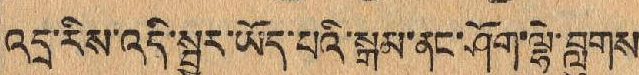འདྲ་རིས་འདི་སྦྱར་ཡོད་པའི་སྒམ་ནང་ཤོག་ལྷེ་བླུགས་
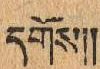དགོས།།
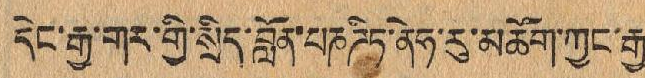དེང་རྒྱ་གར་གྱི་སྲིད་བློན་པཎཌིཏ་ནེཧ་རུ་མཆོག་ཀྱང་རྒྱ་
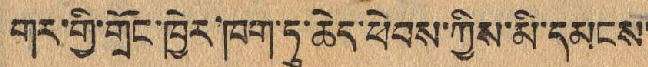གར་གྱི་གྲོང་ཁྱེར་ཁག་ཏུ་ཆེད་ཕེབས་ཀྱིས་མི་དམངས་
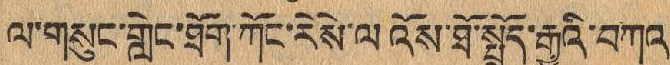ལ་གསུང་གླེང་ཐོག་ཀོང་རེསེ་ལ འོས་ཐོ་སྤྲོད་རྒྱུའི་བཀའ
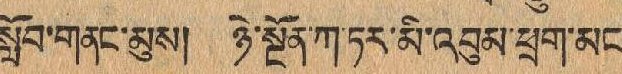སློབ་གནང་མུས། ཉེ་སྔོན་ཀ་ཏར་མི་འབུམ་ཕྲག་མང་
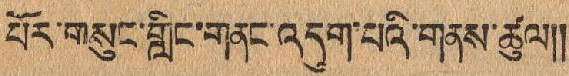པོར་གསུང་གླིང་གནང་འདུག་པའི་གནས་ཚུལ།།
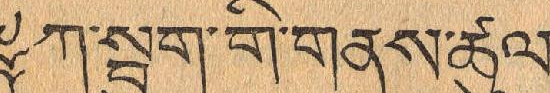༈ ཀ་སྦུག་གི་གནས་ཚུལ།
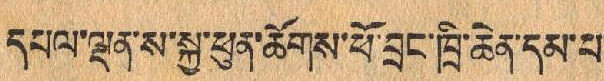དཔལ་ལྡན་ས་སྐྱ་ཕུན་ཚོགས་ཕོ་བྲང་ཁྲི་ཆེན་དམ་པ་
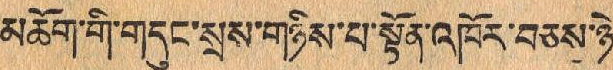མཆོག་གི་གདུང་སྲས་གཉིས་པ་སྟོན་འཁོར་བཅས་ཉེ་
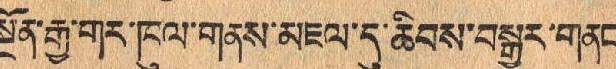སྔོན་རྒྱ་གར་ཁུལ་གནས་མཇལ་དུ་ཆིབས་བསྒྱུར་གནང་
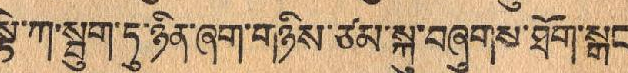སྟེ་ཀ་སྦུག་ཏུ་ཉིན་ཞག་གཉིས་ཙམ་སྐུ་བཞུགས་ཐོག་སྒང་
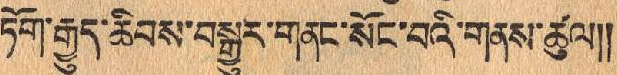ཏོག་རྒྱུད་ཆིབས་བསྒྱུར་གནང་སོང་བའི་གནས་ཚུལ།།
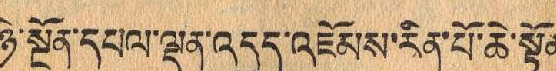ཉེ་སྔོན་དཔལ་ལྡན་འདུད་འཇོམས་རིན་པོ་ཆེ་སྟོན་
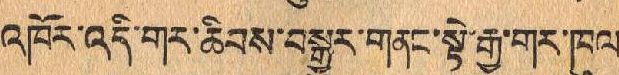འཁོར་འདི་གར་ཆིབས་བསྒྱུར་གནང་སྟེ་རྒྱ་གར་ཁུལ་
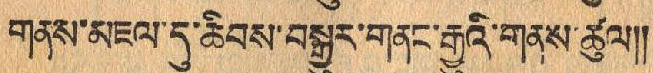གནས་མཇལ་དུ་ཆིབས་བསྒྱུར་གནང་རྒྱུའི་གནས་ཚུལ།།
